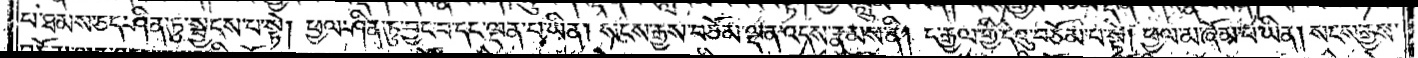པ་ཐམས་ཅད་ཤིན་ཏུ་སྦྱངས་པ་སྟེ། ཕྱལ་ཤིན་ཏུ་བྱང་བ་དང་ལྡན་པ་ཡིན། སངས་རྒྱས་བཅོམ་ལྡན་འདས་རྣམས་ནི། ང་རྒྱལ་གྱི་དེའུ་བཅོམ་པ་སྟེ། ཕྱལ་མ་ཞོམ་པ་ཡིན། སངས་རྒྱས་
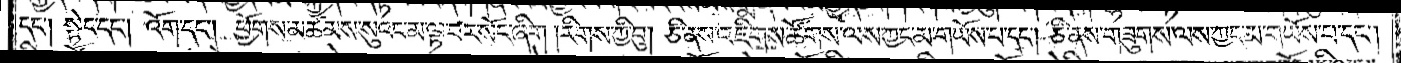དང༌། སྟེང་དང༌། འོག་དང༌། ཕྱོགས་མཚམས་སུའང་མ་ལྟ་བར་སོང་ཞིག །རིགས་ཀྱི་བུ། ཅི་ནས་འཇིགས་ཚོགས་ལས་ཀྱང་མ་གཡོས་པ་དང༌། ཅི་ནས་གཟུགས་ལས་ཀྱང་མ་གཡོས་པ་དང༌།
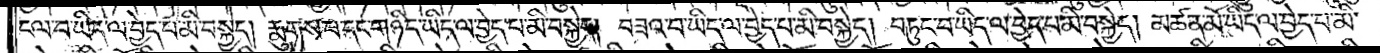ངལ་བ་ཡིད་ལ་བྱེད་པ་མི་བསྐྱེད། རྨུགས་པ་དང་གཉིད་ཡིད་ལ་བྱེད་པ་མི་བསྐྱེད། བཟའ་བ་ཡིད་ལ་བྱེད་པ་མི་བསྐྱེད། བཏུང་བ་ཡིད་ལ་བྱེད་པ་མི་བསྐྱེད། མཚན་མོ་ཡིད་ལ་བྱེད་པ་མི་
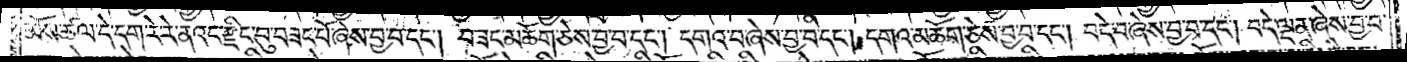མོས་ཚལ་དེ་དག་རེ་རེ་ནའང་རྫིང་བུ་བཟང་པོ་ཞེས་བྱ་བ་དང༌། བཟང་མཆོག་ཅེས་བྱ་བ་དང༌། དགའ་བ་ཞེས་བྱ་བ་དང༌། དགའ་མཆོག་ཅེས་བྱ་བ་དང༌། བདེ་བ་ཞེས་བྱ་བ་དང༌། བདེ་ལྡན་ཞེས་བྱ་བ་
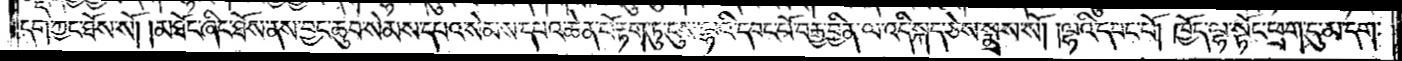དག་ཀྱང་ཐོས་སོ། །མཐོང་ཞིང་ཐོས་ནས་བྱང་ཆུབ་སེམས་དཔའ་སེམས་དཔའ་ཆེན་པོ་རྟག་ཏུ་ངུས་ལྷའི་དབང་པོ་བརྒྱ་བྱིན་ལ་འདི་སྐད་ཅེས་སྨྲས་སོ། །ལྷའི་དབང་པོ། ཁྱོད་ལྷ་སྟོང་ཕྲག་དུ་མ་དག་
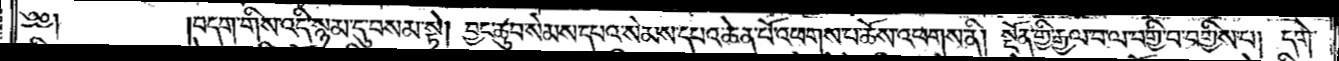༄༅༎བདག་གིས་འདི་སྙམ་དུ་བསམས་ཏེ། བྱང་ཆུབ་སེམས་དཔའ་སེམས་དཔའ་ཆེན་པོ་འཕགས་པ་ཆོས་འཕགས་ནི། སྔོན་གྱི་རྒྱལ་བ་ལ་བགྱི་བ་བགྱིས་པ། དགེ་
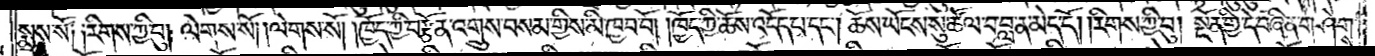སྨྲས་སོ༑ ༑རིགས་ཀྱི་བུ། ལེགས་སོ། །ལེགས་སོ། །ཁྱོད་ཀྱི་བརྩོན་འགྲུས་བསམ་གྱིས་མི་ཁྱབ་བོ། །ཁྱོད་ཀྱི་ཆོས་འདོད་པ་དང༌། ཆོས་ཡོངས་སུ་ཚོལ་བ་བླ་ན་མེད་དོ། །རིགས་ཀྱི་བུ། སྔོན་གྱི་དེ་བཞིན་གཤེགས་
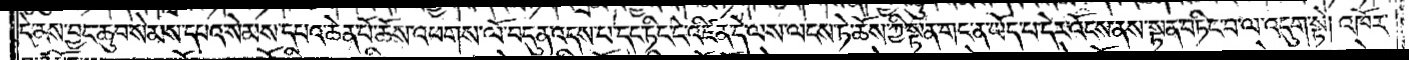དེ་ནས་བྱང་ཆུབ་སེམས་དཔའ་སེམས་དཔའ་ཆེན་པོ་ཆོས་འཕགས་ལོ་བདུན་འདས་པ་དང་ཏིང་ངེ་འཛིན་དེ་ལས་ལངས་ཏེ་ཆོས་ཀྱི་སྟན་གང་ན་ཡོད་པ་དེར་འོངས་ནས་སྟན་པ་ཏིང་བ་ལ་འདུག་སྟེ། འཁོར་
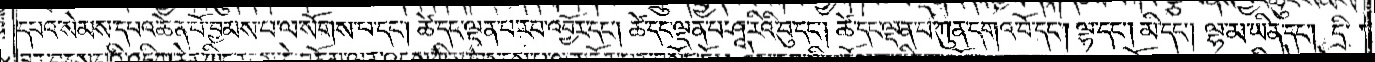དཔའ་སེམས་དཔའ་ཆེན་པོ་བྱམས་པ་ལ་སོགས་པ་དང༌། ཚེ་དང་ལྡན་པ་རབ་འབྱོར་དང༌། ཚེ་དང་ལྡན་པ་ཤཱ་རིའི་བུ་དང༌། ཚེ་དང་ལྡན་པ་ཀུན་དགའ་བོ་དང༌། ལྷ་དང༌། མི་དང༌། ལྷ་མ་ཡིན་དང༌། དྲི་
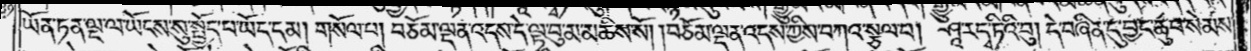ཡོན་ཏན་ལྔ་ལ་ཡོངས་སུ་སྤྱོད་པ་ཡོད་དམ། གསོལ་པ། བཅོམ་ལྡན་འདས་དེ་ལྟ་བུ་མ་མཆིས་སོ། །བཅོམ་ལྡན་འདས་ཀྱིས་བཀའ་སྩལ་པ། ཤཱ་ར་དྭ་ཏིའི་བུ། དེ་བཞིན་དུ་བྱང་ཆུབ་སེམས་
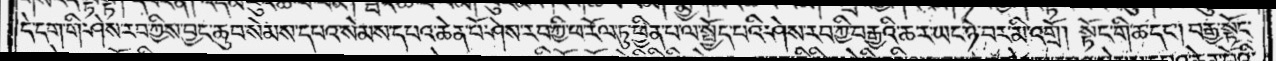དེ་དག་གི་ཤེས་རབ་ཀྱིས་བྱང་ཆུབ་སེམས་དཔའ་སེམས་དཔའ་ཆེན་པོ་ཤེས་རབ་ཀྱི་ཕ་རོལ་ཏུ་ཕྱིན་པ་ལ་སྤྱོད་པའི་ཤེས་རབ་ཀྱི་བརྒྱའི་ཆར་ཡང་ཉེ་བར་མི་འགྲོ། སྟོང་གི་ཆ་དང༌། བརྒྱ་སྟོང་
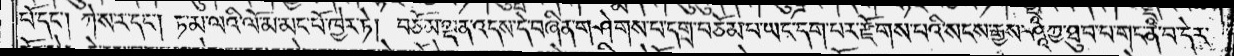པོ་དང༌། ཀེ་ས་ར་དང༌། ཏ་མ་ལའི་ལོ་མ་མང་པོ་ཁྱེར་ཏེ། བཅོམ་ལྡན་འདས་དེ་བཞིན་གཤེགས་པ་དགྲ་བཅོམ་པ་ཡང་དག་པར་རྫོགས་པའི་སངས་རྒྱས་ཤཱཀྱ་ཐུབ་པ་གང་ན་བ་དེར་
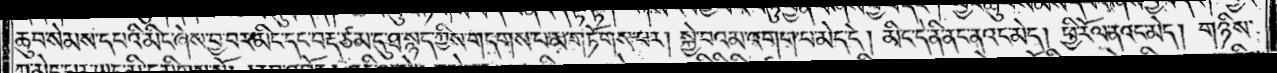ཆུབ་སེམས་དཔའི་མིང་ཞེས་བྱ་བར་མིང་དང་བརྡ་ཙམ་དུ་ཐ་སྙད་ཀྱིས་གདགས་པ་མ་གཏོགས་པར། སྐྱེ་བའམ་འགག་པ་མེད་དེ། མིང་དེ་ནི་ནང་ནའང་མེད། ཕྱི་རོལ་ནའང་མེད། གཉིས་
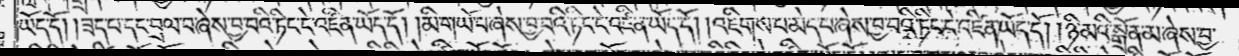ཡོད་དོ། །ཟད་པ་དང་བྲལ་བ་ཞེས་བྱ་བའི་ཏིང་ངེ་འཛིན་ཡོད་དོ། །མི་གཡོ་བ་ཞེས་བྱ་བའི་ཏིང་ངེ་འཛིན་ཡོད་དོ། །འཇིགས་པ་མེད་པ་ཞེས་བྱ་བའི་ཏིང་ངེ་འཛིན་ཡོད་དོ། །ཉི་མའི་སྒྲོན་མ་ཞེས་བྱ་
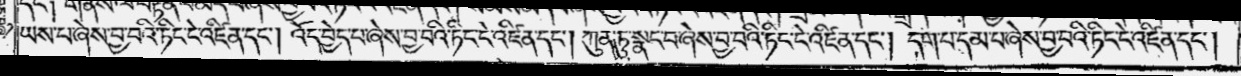ཡས་པ་ཞེས་བྱ་བའི་ཏིང་ངེ་འཛིན་དང༌། འོད་བྱེད་པ་ཞེས་བྱ་བའི་ཏིང་ངེ་འཛིན་དང༌། ཀུན་ཏུ་སྣང་བ་ཞེས་བྱ་བའི་ཏིང་ངེ་འཛིན་དང༌། དག་པ་དམ་པ་ཞེས་བྱ་བའི་ཏིང་ངེ་འཛིན་དང༌།
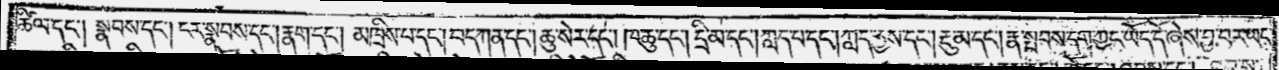ཚིལ་དང༌། སྣབས་དང༌། ངར་སྣབས་དང༌། རྣག་དང༌། མཁྲིས་པ་དང༌། བད་ཀན་དང༌། ཆུ་སེར་དང༌། ཁ་ཆུ་དང༌། དྲི་མ་དང༌། ཀླད་པ་དང༌། ཀླད་རྒྱས་དང༌། རྔུ་མ་དང༌། རྣ་སྤབས་དག་ཀྱང་ཡོད་དོ་ཞེས་བྱ་བར་ཡང་
